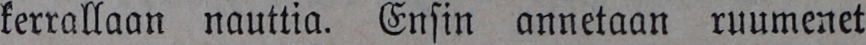kerrallaan nauttia. Ensin annetaan ruumenet
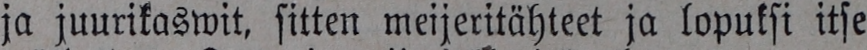ja juurikaswit, sitten meijeritähteet ja lopuksi itse
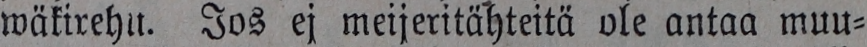wäkirehu. Jos ej meijeritähteitä ole antaa muu-
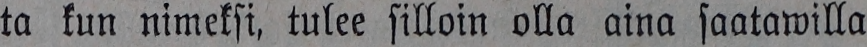ta kun nimeksi, tulee silloin olla aina saatawilla
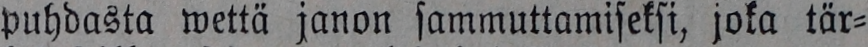puhdasta wettä janon sammuttamiseksi, joka tär-
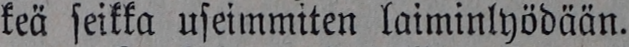keä seikka useimmiten laiminlyödään.
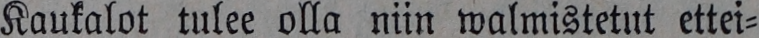Kaukalot tulee olla niin walmistetut ettei-
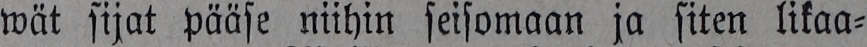wät sijat pääse niihin seisomaan ja siten likaa-
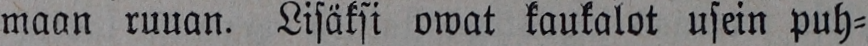maan ruuan. Lisäksi owat kaukalot usein puh-
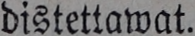distettawat.
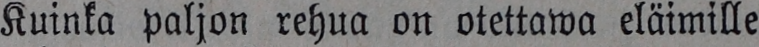Kuinka paljon rehua on otettawa eläimille
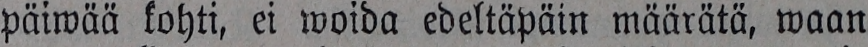päiwää kohti, ei woida edeltäpäin määrätä, waan
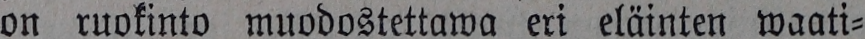on ruokinta muodostettawa eri eläinten waati-
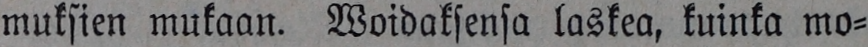muksien mukaan. Woidaksensa laskea, kuinka mo-
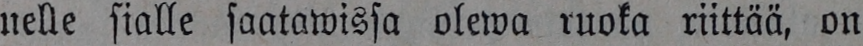nelle sialle saatawissa olewa ruoka riittää, on
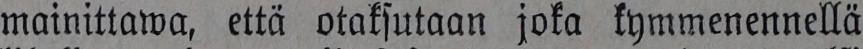mainittawa, että otaksutaan joka kymmenennellä
